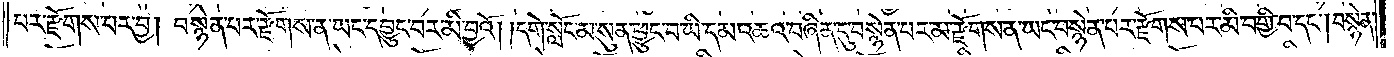པར་རྫོགས་པར་བྱ། བསྙེན་པར་རྫོགས་ན་ཡང་དབྱུང་བར་མི་བྱའོ། །དགེ་སློང་མ་སུན་ཕྱུང་བ་ཡི་དམ་འཆའ་བཞིན་དུ་བསྙེན་པར་མ་རྫོགས་ན་ཡང་བསྙེན་པར་རྫོགས་པར་མི་བགྱི་བ་དང༌། བསྙེན་
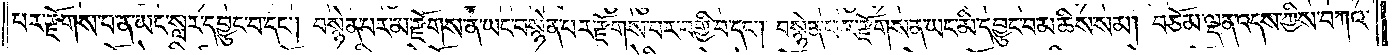པར་རྫོགས་པ་ན་ཡང་སླར་དབྱུང་བ་དང༌། བསྙེན་པར་མ་རྫོགས་ན་ཡང་བསྙེན་པར་རྫོགས་པར་བགྱི་བ་དང༌། བསྙེན་པར་རྫོགས་ན་ཡང་མི་དབྱུང་བ་མཆིས་སམ། བཅོམ་ལྡན་འདས་ཀྱིས་བཀའ་
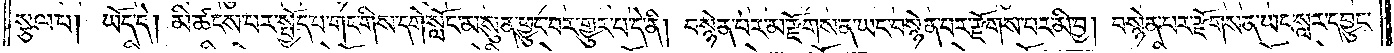སྩལ་པ། ཡོད་དེ། མི་ཚངས་པར་སྤྱོད་པ་གང་གིས་དགེ་སློང་མ་སུན་ཕྱུང་བར་གྱུར་པ་དེ་ནི། བསྙེན་པར་མ་རྫོགས་ན་ཡང་བསྙེན་པར་རྫོགས་པར་མི་བྱ། བསྙེན་པར་རྫོགས་ན་ཡང་སླར་དབྱུང་
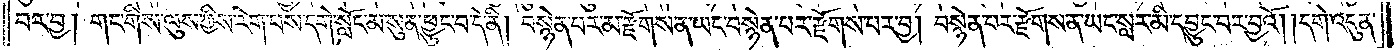བར་བྱ། གང་གིས་ལུས་ཀྱིས་རེག་པས་དགེ་སློང་མ་སུན་ཕྱུང་བ་དེ་ནི། བསྙེན་པར་མ་རྫོགས་ན་ཡང་བསྙེན་པར་རྫོགས་པར་བྱ། བསྙེན་པར་རྫོགས་ན་ཡང་སླར་མི་དབྱུང་བར་བྱའོ། །དགེ་འདུན་
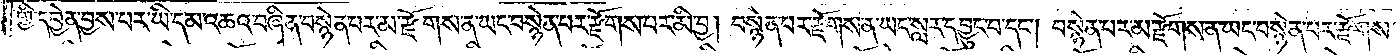གྱི་དབྱེན་བྱས་པར་ཡི་དམ་འཆའ་བཞིན་བསྙེན་པར་མ་རྫོགས་ན་ཡང་བསྙེན་པར་རྫོགས་པར་མི་བྱ། བསྙེན་པར་རྫོགས་ན་ཡང་སླར་དབྱུང་བ་དང༌། བསྙེན་པར་མ་རྫོགས་ན་ཡང་བསྙེན་པར་རྫོགས་
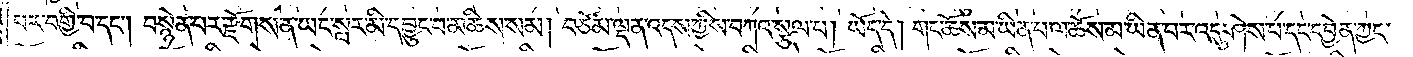པར་བགྱི་བ་དང༌། བསྙེན་པར་རྫོགས་ན་ཡང་སླར་མི་དབྱུང་བ་མཆིས་སམ། བཅོམ་ལྡན་འདས་ཀྱིས་བཀའ་སྩལ་པ། ཡོད་དེ། གང་ཆོས་མ་ཡིན་པ་ལ་ཆོས་མ་ཡིན་པར་འདུ་ཤེས་པ་དང་དབྱེན་ཀྱང་
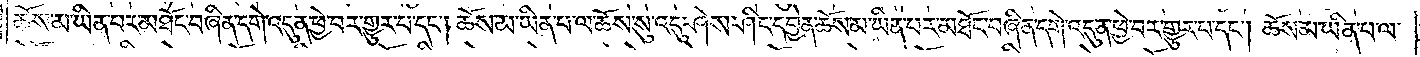ཆོས་མ་ཡིན་པར་མཐོང་བཞིན་དགེ་འདུན་ཕྱེ་བར་གྱུར་པ་དང༌། ཆོས་མ་ཡིན་པ་ལ་ཆོས་སུ་འདུ་ཤེས་ཤིང་དབྱེན་ཆོས་མ་ཡིན་པར་མཐོང་བཞིན་དགེ་འདུན་ཕྱེ་བར་གྱུར་པ་དང༌། ཆོས་མ་ཡིན་པ་ལ་
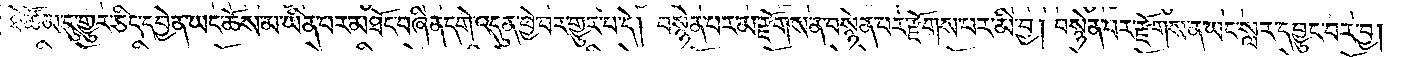ཐེ་ཚོམ་དུ་གྱུར་ཅིང་དབྱེན་ཡང་ཆོས་མ་ཡིན་པར་མཐོང་བཞིན་དགེ་འདུན་ཕྱེ་བར་གྱུར་པ་དེ། བསྙེན་པར་མ་རྫོགས་ན་བསྙེན་པར་རྫོགས་པར་མི་བྱ། བསྙེན་པར་རྫོགས་ན་ཡང་སླར་དབྱུང་བར་བྱ།
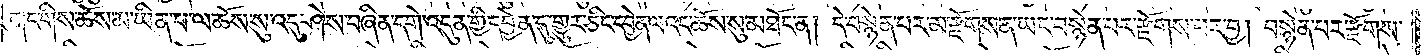གང་གིས་ཆོས་མ་ཡིན་པ་ལ་ཆོས་སུ་འདུ་ཤེས་བཞིན་དགེ་འདུན་གྱི་དབྱེན་དུ་གྱུར་ཅིང་དབྱེན་ལའང་ཆོས་སུ་མཐོང་ན། དེ་བསྙེན་པར་མ་རྫོགས་ན་ཡང་བསྙེན་པར་རྫོགས་པར་བྱ། བསྙེན་པར་རྫོགས་
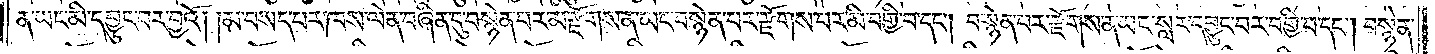ན་ཡང་མི་དབྱུང་བར་བྱའོ། །མ་བསད་པར་ཁས་ལེན་བཞིན་དུ་བསྙེན་པར་མ་རྫོགས་ན་ཡང་བསྙེན་པར་རྫོགས་པར་མི་བགྱི་བ་དང༌། བསྙེན་པར་རྫོགས་ན་ཡང་སླར་དབྱུང་བར་བགྱི་བ་དང༌། བསྙེན་
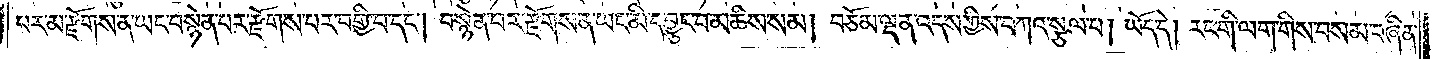པར་མ་རྫོགས་ན་ཡང་བསྙེན་པར་རྫོགས་པར་བགྱི་བ་དང༌། བསྙེན་པར་རྫོགས་ན་ཡང་མི་དབྱུང་བ་མཆིས་སམ། བཅོམ་ལྡན་འདས་ཀྱིས་བཀའ་སྩལ་པ། ཡོད་དེ། རང་གི་ལག་གིས་བསམ་བཞིན་
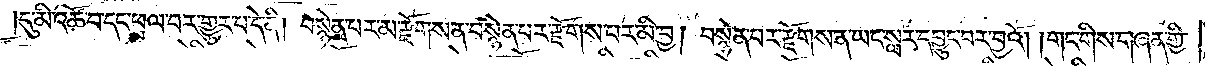དུ་མི་འཚོ་བ་དང་ཕྲལ་བར་གྱུར་པ་དེ་ནི། བསྙེན་པར་མ་རྫོགས་ན་བསྙེན་པར་རྫོགས་པར་མི་བྱ། བསྙེན་པར་རྫོགས་ན་ཡང་སླར་དབྱུང་བར་བྱའོ། །གང་གིས་གཞན་གྱི་
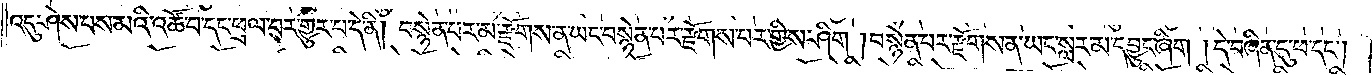འདུ་ཤེས་པས་མའི་འཚོ་བ་དང་ཕྲལ་བར་གྱུར་པ་དེ་ནི། བསྙེན་པར་མ་རྫོགས་ན་ཡང་བསྙེན་པར་རྫོགས་པར་གྱིས་ཤིག །བསྙེན་པར་རྫོགས་ན་ཡང་སླར་མ་དབྱུང་ཞིག །དེ་བཞིན་དུ་ཕ་དང༌།
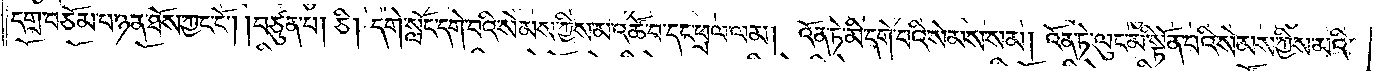དགྲ་བཅོམ་པ་ཉན་ཐོས་ཀྱང་ངོ༌། །བཙུན་པ། ཅི། དགེ་སློང་དགེ་བའི་སེམས་ཀྱིས་མ་འཚོ་བ་དང་ཕྲལ་ལམ། འོན་ཏེ་མི་དགེ་བའི་སེམས་སམ། འོན་ཏེ་ལུང་མི་སྟོན་པའི་སེམས་ཀྱིས་མའི་
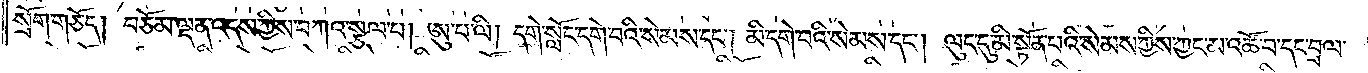སྲོག་གཅོད། བཅོམ་ལྡན་འདས་ཀྱིས་བཀའ་སྩལ་པ། ཨུ་པ་ལི། དགེ་སློང་དགེ་བའི་སེམས་དང༌། མི་དགེ་བའི་སེམས་དང༌། ལུང་དུ་མི་སྟོན་པའི་སེམས་ཀྱིས་ཀྱང་མ་འཚོ་བ་དང་བྲལ་
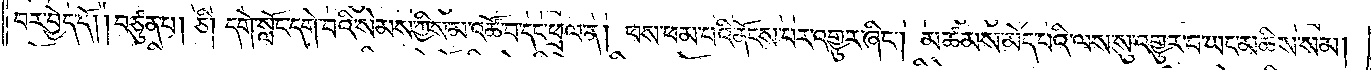བར་བྱེད་དོ། །བཙུན་པ། ཅི། དགེ་སློང་དགེ་བའི་སེམས་ཀྱིས་མ་འཚོ་བ་དང་ཕྲལ་ན། ཕས་ཕམ་པའི་ནོངས་པར་འགྱུར་ཞིང༌། མཚམས་མེད་པའི་ལས་སུ་འགྱུར་བ་ཡང་མཆིས་སམ།
